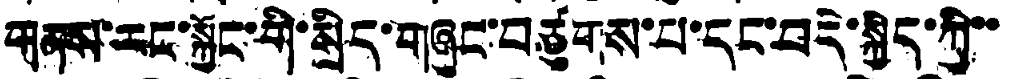གནས་རང་སྐྱོང་གི་སྲིད་གཞུང་བཙུགས་པ་དང་བདེ་སྐྱིད་ཀྱི་་
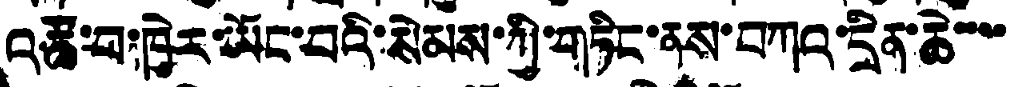འཚོ་བ་ཁྱེར་ཡོང་བའི་སེམས་ཀྱི་གཏིང་ནས་བཀའ་དྲིན་ཆེ་་་་
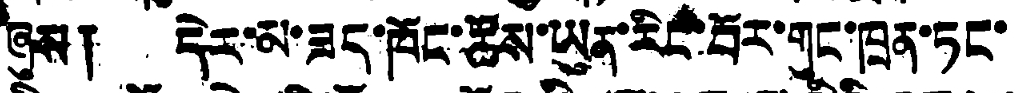ཞུས། དེར་མ་ཟད་ཁོང་ཚོས་ཡུན་རིང་པོར་གུང་ཁྲན་ཏང་
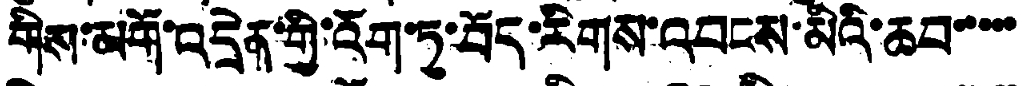གིས་མགོ་འདྲེན་གྱི་འོག་ཏུ་བོད་རིགས་འབངས་མིའི་ཆབ་་་་
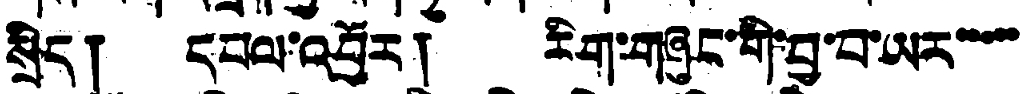སྲེད། དཔལ་འབྱོར། རིག་གཞུང་གི་བྱ་བ་ཡར་་་་་་
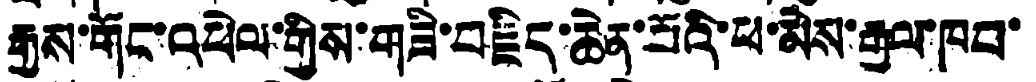རྒྱས་གོང་འཕེལ་གྱིས་གཟི་བརྗིད་ཆེན་པོའི་ཕ་མེས་རྒྱལ་ཁབ་
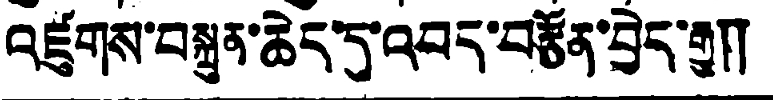འཛུགས་བསྐྲུན་ཆེད་དུ་འབད་བརྩོན་བྱེད་རྒྱུ།།
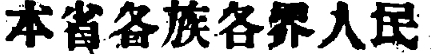本省各族各界人民
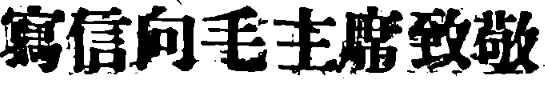寫信向毛主席致敬
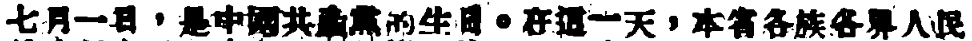七月一日，是中國共產黨的生日。在這一天，本省各族各界人民
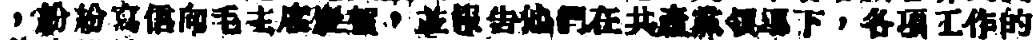，紛紛寫信向毛主席慶賀，並報告他們在共產黨領導下，各項工作的
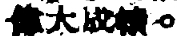偉大戰績。
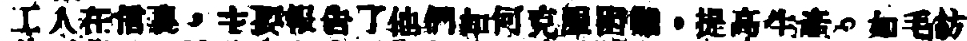工人在信裏，主要報告了他們如何克服困難，提高生產。如毛紡
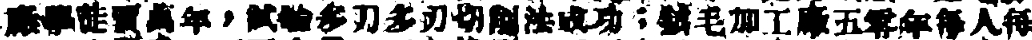廠學徒賈萬年，試驗多刀多刀切削法成功；絨毛加工廠五零年每人每
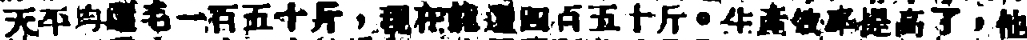天平均紡毛一百五十斤，現在就達四百五十斤。生產效率提高了，它
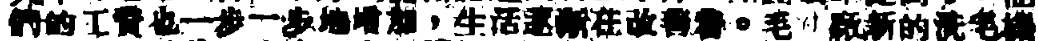們的工資也一步一步地增加，生活逐漸在改善着。毛紡廠新的洗毛機
